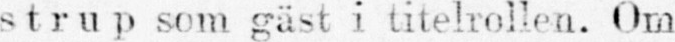strup som gäst i titelrollen. Om
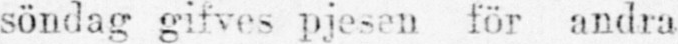söndag gifves pjesen för andra
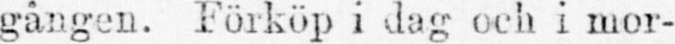gången. Förköp i dag och i mor-
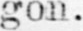gon.
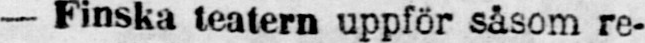— Finska teatern uppför såsom re-
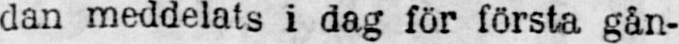dan meddelats i dag för första gån-
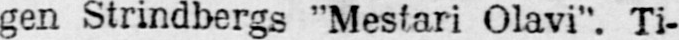gen Strindbergs “Mestari Olavi“. Ti-
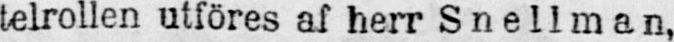telrollen utföres af herr Snellman,
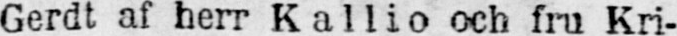Gerdt af herr Kallio och fru Kri-
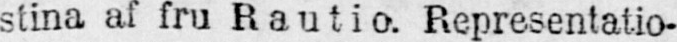stina af fru Rautio. Representatio-
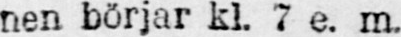nen börjar kl. 7 e. m.
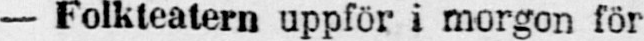— Folkteatern uppför i morgon för
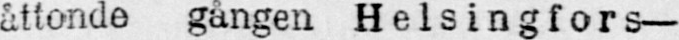åttonde gången Helsingfors—
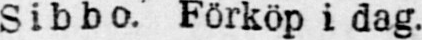Sibbo. Förköp i dag.
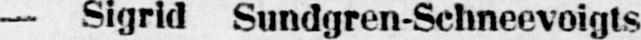— Sigrid Sundgren-Schneevoigts
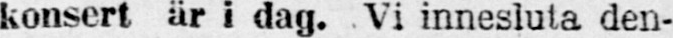konsert är i dag. Vi innesluta den-
